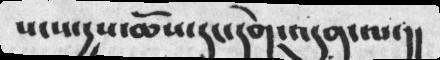སངས་དྱས་ཆོས་དང་དགེ་འདུན་ལ་།།
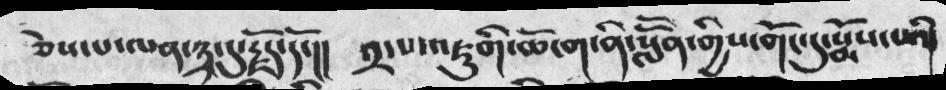ཅེས་པ་ལན་༣་དུ་རྗོད་དོ་།།  ༢་པ་འཇུགི་ཆོ་ག་ནི་སློོན་གྱིས་གོང་དུ་སྨོས་པའི
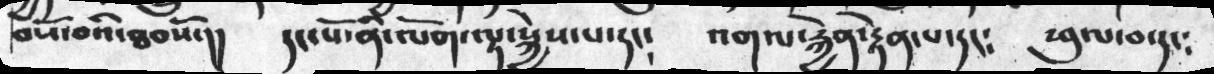བསོ་བའི་ཐབསོ་།།    དང་པོ་ནི་ལོག་ལྟ་སྐྱེས་པ་དང།    འགལ་རྐྱེན་རྟེན་པ་དང༴   ཕུལ་བ་དང༴
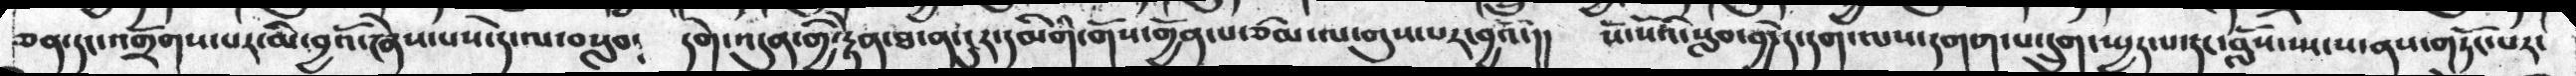ཅན་དང་འགྲོགས་པར་མི་བྱའོ་ཞེས་པས་དེ་ལ་བསླབ༴  དགེ་འདུན་གྱི་རྟེན་ཐ་ན་ངུར་དམིགི་གོས་གྱོན་པ་ཙམ་ལ་བདུས་པར་བྱའོ་།།  ས་སོའི་སླབ་བྱེད་དག་ལས་དགག་པ་དྲུག་སྤྱད་པ་དང་བློས་སྤངས་ནས་གཏོང་པར་
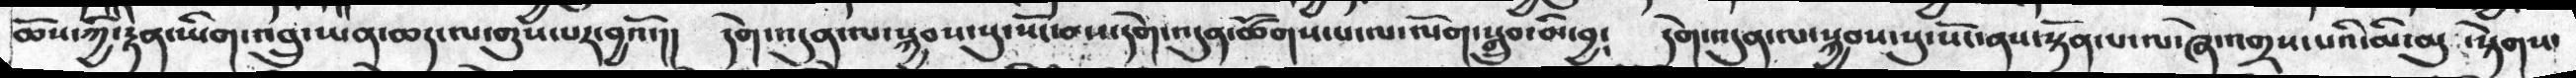ཆོས་ཀྱི་རྟེན་ཡིག་འབྲུ་ཡན་ཆད་ལ་གུས་པར་བྱའོ་།།  དགེ་འདུན་ལ་སྐྱབས་སུ་སོང་བས་དགེ་འདུན་ཚོགས་པ་ལ་ལོག་སྒྲུབ་མི་བྱ༴  དགེ་འདུན་ལ་སྐྱབས་སུ་སོང་ནས་སྟོན་པ་ལ་ཞེ་འགྲས་པའི་མི་མུ སྟེགས་
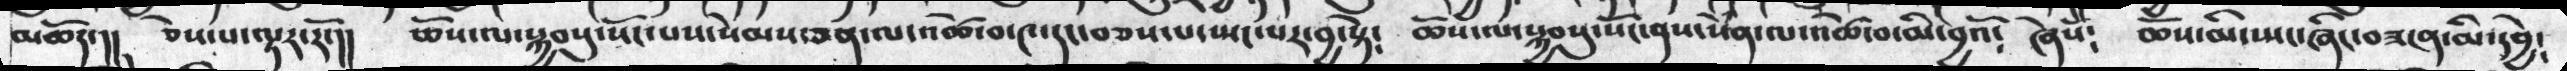མཆོད་།།  ཅེས་པ་ལྟར་རོ་།།  ཆོས་ལ་སྐྱབསུ་སོང་པས་སེམས་ཅན་ལ་འཚེ་བ་༤་དང་བཅས་པ་སྤང་པར་བྱ་སྟེ༴  ཆོས་ལ་སྐྱབསུ་སོང་ནས་སེཾན་ལ་འཚེ་བ་མི་བྱའོ༴ ཞེསོ༴  ཆོས་མི་སྤང་ཞིང་བཟངན་མི་དབྱེ༴
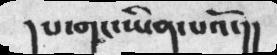།  པ་གང་ཡིན་པའོ་།།
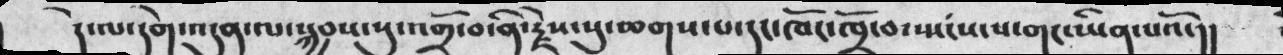དེ་ལ་དགེ་འདུན་ལ་སྐྱབས་སུ་འགྲོ་བ་ནི་རྗེས་སུ་ཆགས་པ་དང་ཁོང་ཁྲོ་བ་སྤངས་པ་གང་ཡིན་པའོ་།།
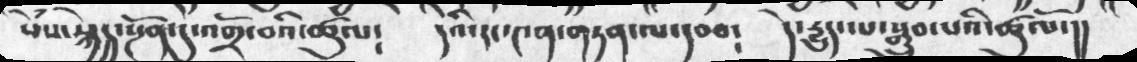སེསྃ་སྐྱེད་སྔོན་དུ་འགྲོ་བའི་ཚུལ༴    དེའི་རང་༤ན་གཏན་ལ་དབབ༴   དེ་རྒྱུད་པ་སྒྲུབ་པའི་ཚུལོ་།།
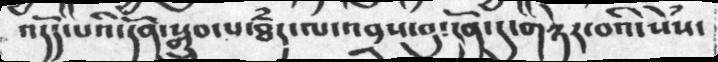འདོད་པའི་དོན་སྒྲུབ་པ་ཐཾད་ལ་འབྲས་བུ་དོན་དུ་གཉེར་བའི་སེཾས་
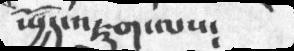སྤྱོད་འཇུག་ལས༴
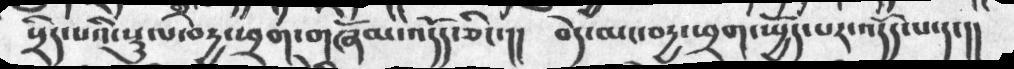སྲིད་པའི་སྡུ་པ་བདྱ་ཕྲག་གཞོམ་འདོད་ཅིང་།།  བདེ་མང་བདྱ་ཕྲག་སྤྱོད་པར་འདོད་པ་དང།།
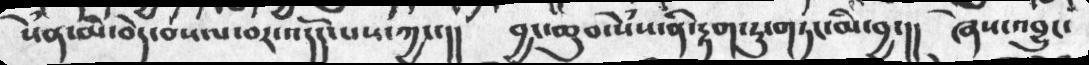སེཾན་མི་བདེ་བས་ས་བར་འདོད་པས་ཀྱང་།།  བྱང་ཆུབ་སེཾས་ནི་རྟག་ཏུ་གཏན་མི་བྱ་།།  ཞེས་འབྱུང་
